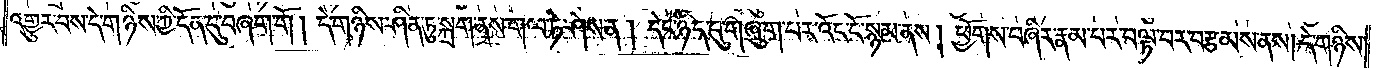འགྱུར་བས་དེ་གཉིས་ཀྱི་དོན་དུ་བཞག་གོ། དེ་གཉིས་ཤིན་ཏུ་སྐྲག་ནས་གལ་ཏེ་ཤེས་ན། དེང་ཉིད་དུ་གཞུག་པར་འོང་ངོ་སྙམ་ནས། ཕྱོགས་བཞིར་རྣམ་པར་བལྟ་བར་བརྩམས་ནས།དེ་གཉིས་
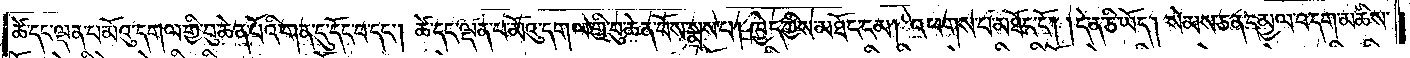ཚེ་དང་ལྡན་པ་མོའུ་དགལ་གྱི་བུ་ཆེན་པོའི་གན་དུ་དོང་བ་དང༌། ཚེ་དང་ལྡན་པ་མོའུ་དགལ་གྱི་བུ་ཆེན་པོས་སྨྲས་པ། ཁྱེད་ཀྱིས་མཐོང་ངམ། འཕགས་པ་མཐོང་ངོ༌། །དེ་ན་ཅི་ཡོད། སེམས་ཅན་དམྱལ་བ་དག་མཆིས་
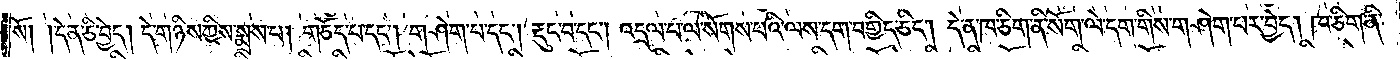སོ། །དེ་ན་ཅི་བྱེད། དེ་གཉིས་ཀྱིས་སྨྲས་པ། གཅོད་པ་དང༌། གཤེག་པ་དང༌། རྡུང་བ་དང༌། འདྲལ་པ་ལ་སོགས་པའི་ལས་དག་བགྱིད་ཅིང༌། དེ་ན་ཁ་ཅིག་ནི་སོག་ལེ་དག་གིས་གཤེག་པར་བྱེད། ཁ་ཅིག་ནི་
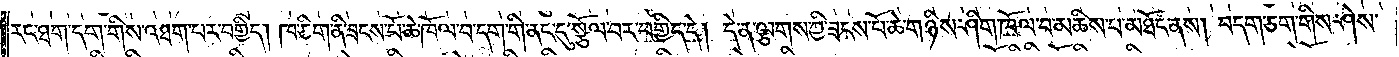རང་ཐག་དག་གིས་འཐག་པར་བགྱིད། ཁ་ཅིག་ནི་ཟངས་པོ་ཆེ་ཁོལ་བ་དག་གི་ནང་དུ་སྩོལ་བར་བགྱིད་དེ། དེ་ན་ལྕགས་ཀྱི་ཟངས་པོ་ཆེ་གཉིས་ཤིག་ཁོལ་བ་མཆིས་པ་མཐོང་ནས། བདག་ཅག་གིས་ཤེས་
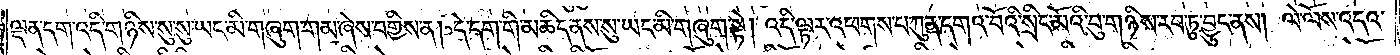ལྡན་དག་འདི་གཉིས་སུ་སུ་ཡང་མི་གཞུག་གམ་ཞེས་བགྱིས་ན། དེ་དག་གི་མཆིད་ནས་སུ་ཡང་མི་གཞུག་སྟེ། འདི་ལྟར་འཕགས་པ་ཀུན་དགའ་བོའི་སྲིད་མོའི་བུ་གཉིས་རབ་ཏུ་བྱུང་ནས། ལེ་ལོས་འདའ་
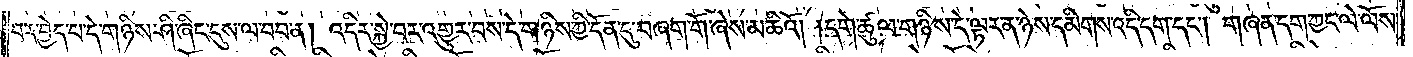བར་བྱེད་པ་དེ་གཉིས་ཤི་ཞིང་དུས་ལ་བབ་ན། འདིར་སྐྱེ་བར་འགྱུར་བས་དེ་གཉིས་ཀྱི་དོན་དུ་བཞག་གོ་ཞེས་མཆིའོ། །དགེ་ཚུལ་གཉིས་དེ་ལྟར་ན་ཉེས་དམིགས་འདི་དག་དང༌། གཞན་དག་ཀྱང་ལེ་ལོས་
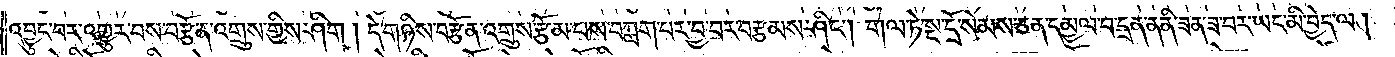འབྱུང་བར་འགྱུར་བས་བརྩོན་འགྲུས་གྱིས་ཤིག། དེ་གཉིས་བརྩོན་འགྲུས་རྩོམ་པས་བཀླག་པར་བྱ་བར་བརྩམས་ཤིང༌། གལ་ཏེ་སྔ་དྲོ་སེམས་ཅན་དམྱལ་བ་དྲན་ན་ནི་ཟན་ཟ་བར་ཡང་མི་བྱེད་ལ།
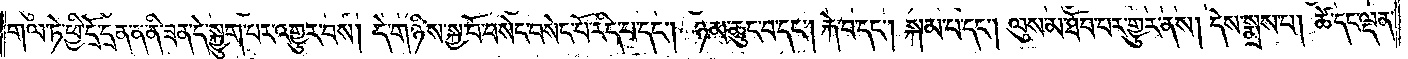གལ་ཏེ་ཕྱི་དྲོ་དྲན་ན་ནི་ཟན་དེ་སྐྱུག་པར་འགྱུར་བས། དེ་གཉིས་སྐྱ་བོ་བསེང་བསེང་པོ་རིད་པ་དང༌། ཉམ་ཆུང་བ་དང༌། རྐེ་བ་དང༌། སྐམ་པ་དང༌། ལུས་མ་ཐོབ་པར་གྱུར་ནས། དེས་སྨྲས་པ། ཚེ་དང་ལྡན་
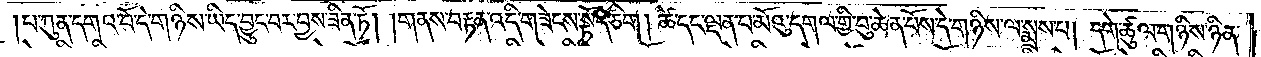པ་ཀུན་དགའ་བོ་དེ་གཉིས་ཡིད་བྱུང་བར་བྱས་ཟིན་ཏོ། །གནས་བརྟན་འདི་གཟེངས་སྟོད་ཅིག། ཚེ་དང་ལྡན་པ་མོའུ་དགལ་གྱི་བུ་ཆེན་པོས་དེ་གཉིས་ལ་སྨྲས་པ། དགེ་ཚུལ་གཉིས་ཉིན་
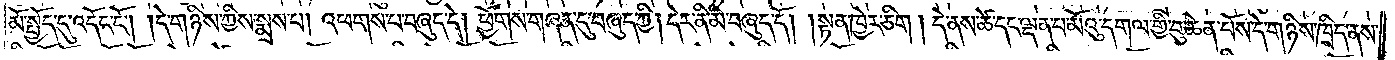མོ་སྤྱོད་དུ་འདོང་ངོ༌། །དེ་གཉིས་ཀྱིས་སྨྲས་པ། འཕགས་པ་བཞུད་དེ། ཕྱོགས་གཞན་དུ་བཞུད་ཀྱི། དེར་ནི་མི་བཞུད་དོ། །སྟན་ཁྱེར་ཅིག །དེ་ནས་ཚེ་དང་ལྡན་པ་མོའུ་དགལ་གྱི་བུ་ཆེན་པོས་དེ་གཉིས་ཁྲིད་ནས་
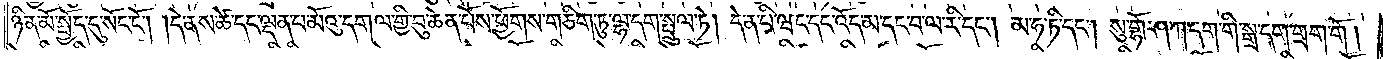ཉིན་མོ་སྤྱོད་དུ་སོང་ངོ༌། །དེ་ནས་ཚེ་དང་ལྡན་པ་མོའུ་དགལ་གྱི་བུ་ཆེན་པོས་ཕྱོགས་གཅིག་ཏུ་ལྷ་དག་སྤྲུལ་ཏེ། དེ་ན་པི་ཝང་དང་འོད་མ་དང་བ་ལ་རི་དང༌། མ་ཧ་ཏི་དང༌། སུ་གྷོ་ཤ་ཀ་དག་གི་སྒྲ་དག་གྲག་གོ།
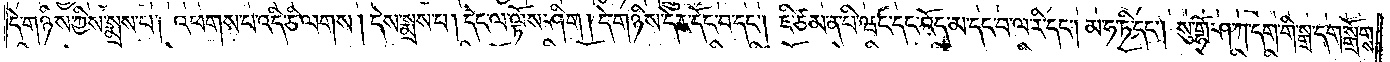དེ་གཉིས་ཀྱིས་སྨྲས་པ། འཕགས་པ་འདི་ཅི་ལགས། དེས་སྨྲས་པ། དེང་ལ་ལྟོས་ཤིག །དེ་གཉིས་དེར་དོང་བ་དང༌། ཇི་ཙམ་ན་པི་ཝང་དང་འོད་མ་དང་བ་ལ་རི་དང༌། མ་ཧ་ཏི་དང༌། སུ་གྷོ་ཤ་ཀ་དག་གི་སྒྲ་དག་སྒྲོགས་
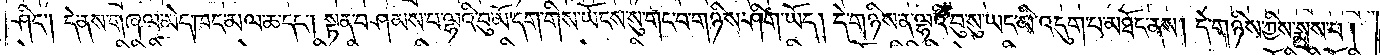ཤིང༌། དེ་ནས་གཞལ་མེད་ཁང་མལ་ཆ་དང༌། སྟན་བཤམས་པ་ལྷའི་བུ་མོ་དག་གིས་ཡོངས་སུ་གང་བ་གཉིས་ཤིག་ཡོད། དེ་གཉིས་ན་ལྷའི་བུ་སུ་ཡང་མི་འདུག་པ་མཐོང་ནས། དེ་གཉིས་ཀྱིས་སྨྲས་པ།
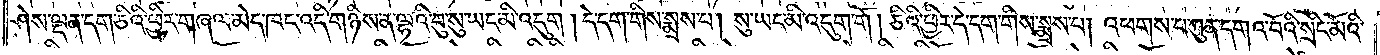ཤེས་ལྡན་དག་ཅིའི་ཕྱིར་གཞལ་མེད་ཁང་འདི་གཉིས་ན་ལྷའི་བུ་སུ་ཡང་མི་འདུག །དེ་དག་གིས་སྨྲས་པ། སུ་ཡང་མི་འདུག་གོ། ཅིའི་ཕྱིར་དེ་དག་གིས་སྨྲས་པ། འཕགས་པ་ཀུན་དགའ་བོའི་སྲིང་མོའི་
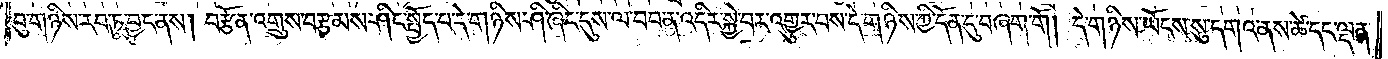བུ་གཉིས་རབ་ཏུ་བྱུང་ནས། བརྩོན་འགྲུས་བརྩམས་ཤིང་སྤྱོད་པ་དེ་གཉིས་ཤི་ཞིང་དུས་ལ་བབ་ན་འདིར་སྐྱེ་བར་འགྱུར་བས་དེ་གཉིས་ཀྱི་དོན་དུ་བཞག་གོ། དེ་གཉིས་ཡོངས་སུ་དགའ་ནས་ཚེ་དང་ལྡན་
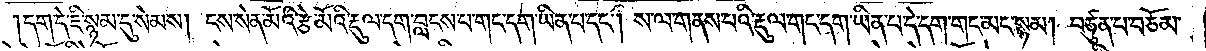།དག་དེ་ཇི་སྙམ་དུ་སེམས། ངས་སེན་མོའི་རྩེ་མོའི་རྡུལ་དག་བླངས་པ་གང་དག་ཡིན་པ་དང༌། ས་ལ་གནས་པའི་རྡུལ་གང་དག་ཡིན་པ་དེ་དག་གང་མང་སྙམ། བཙུན་པ་བཅོམ་
